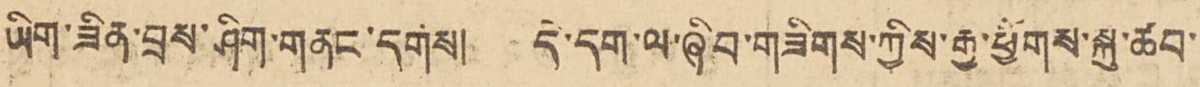ཡིག་ཟིན་བྲས་ཤིག་གནང་དགས། དེ་དག་ལ་ཞིབ་གཟིགས་ཀྱིས་རྒྱ་ཕྱོགས་སྐུ་ཚབ་
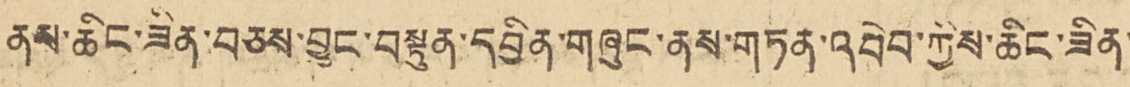ནས་ཆིང་ཟིན་བཅས་བྱུང་བསྟུན་དབྱིན་གཞུང་ནས་གཏན་འབེབ་ཀྱིས་ཆིང་ཟིན་
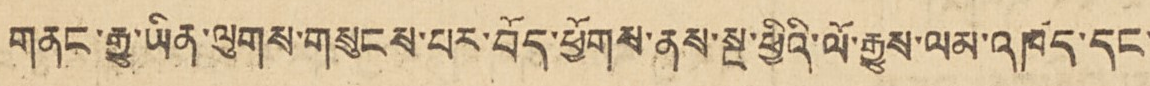གནང་རྒྱུ་ཡིན་ལུགས་གསུངས་པར་བོད་ཕྱོགས་ནས་སྔ་ཕྱིའི་ལོ་རྒྱུས་ལམ་འཁད་དང་
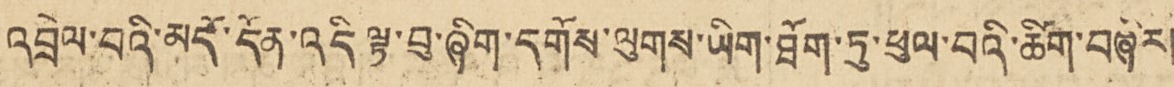འབྲེལ་བའི་མདོ་དོན་འདི་ལྟ་བུ་ཞིག་དགོས་ལུགས་ཡིག་ཐོག་ཏུ་ཕུལ་བའི་ཚིག་བཞིར།
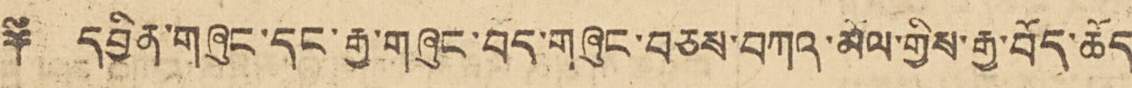༈ དབྱིན་གཞུང་དང་རྒྱ་གཞུང་བོད་གཞུང་བཅས་བཀའ་མོལ་གྱིས་རྒྱ་བོད་ཆོད་
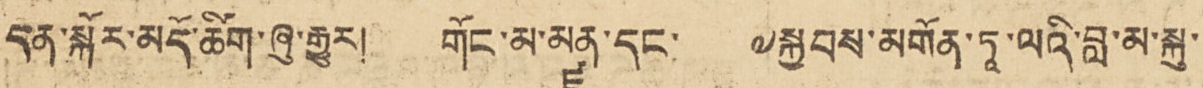དན་སྐོར་མདོ་ཚིག་ཞུ་རྒྱུར། གོང་མ་མནྫུ་དང་ ༸སྐྱབས་མགོན་ཏཱ་ལའི་བླ་མ་སྐུ་
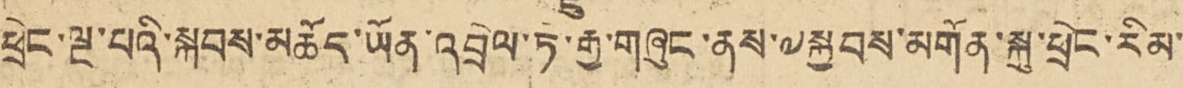ཕྲེང་ལྔ་པའི་མཆོད་ཡོན་འབྲེལ་ཏེ་རྒྱ་གཞུང་ནས་༸སྐྱབས་མགོན་སྐུ་ཕྲེང་རིམ་
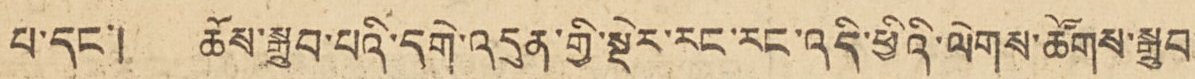པ་དང་། ཆོས་སྒྲུབ་པའི་དགེ་འདུན་གྱི་སྡེར་རང་རང་འདི་ཕྱིའི་ལེགས་ཚོགས་སྒྲུབ་
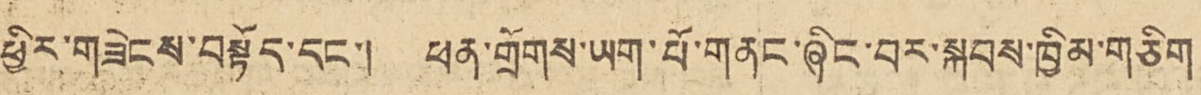ཕྱིར་གཟེངས་བསྟོད་དང་། ཕན་གྲོགས་ཡག་པོ་གནང་ཞིང་བར་སྐབས་ཁྱིམ་གཅིག
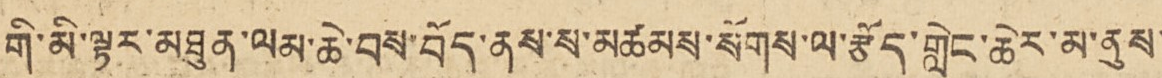གི་མི་ལྟར་མཐུན་ལམ་ཆེ་བས་བོད་ནས་ས་མཚམས་སོགས་ལ་རྩོད་གླེང་ཆེར་མ་ནུས་
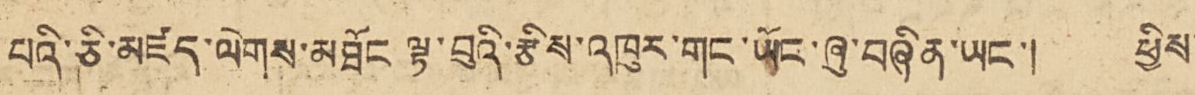པའི་ཅི་མཛད་ལེགས་མཐོང ལྷ་བུའི་རྩིས་འཁུར་གང་ཡོང་ཞུ་བཞིན་ཡང་། ཕྱིས་
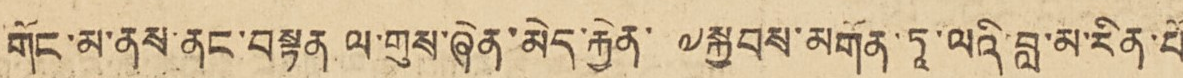གོང་མ་ནས་ནང་བསྟན ལ་གུས་ཞེན་མེད་རྐྱེན་ ༸སྐྱབས་མགོན་ཏཱ་ལའི་བླ་མ་རིན་པོ་
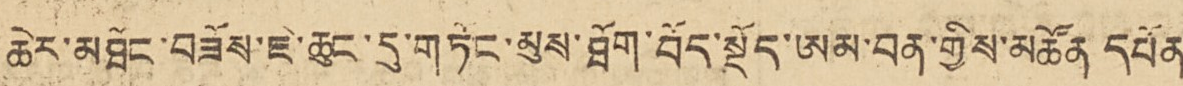ཆེར་མཐོང་བཟོས་ཇེ་ཆུང་དུ་གཏེར་མུས་ཐོག་བོད་སྡོད་ཨམ་བན་གྱིས་མཚོན དཔོན་
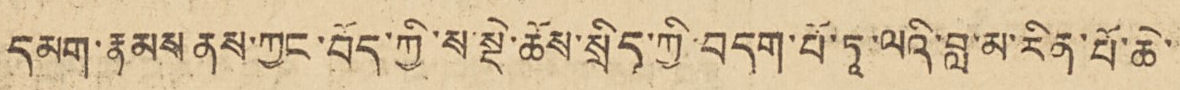དམག་རྣམས ནས་ཀྱང་བོད་ཀྱི་ས་སྡེ་ཆོས་སྲིད་ཀྱི་བདག་པོ་ཏཱ་ལའི་བླ་མ་རིན་པོ་ཆེ་
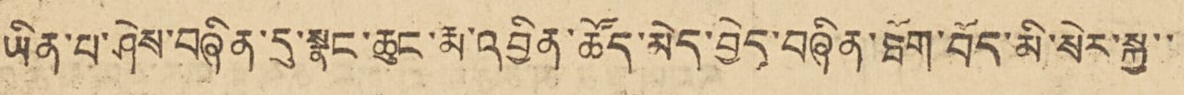ཡིན་པ་ཤེས་བཞིན་དུ་སྣང་ཆུང་རྨ་འབྱིན་ཚོད་མེད་བྱེད་བཞིན་ཐོག་བོད་མི་སེར་སྐྱ་་
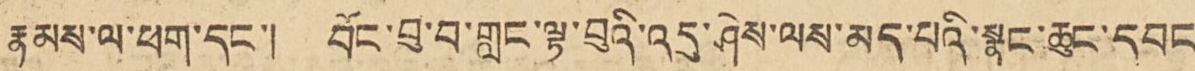རྣམས་ལ་ཕག་དང་། བོང་བུ་བ་གླང་ལྟ་བུའི་འདུ་ཤེས་ལས་མད་པའི་སྣང་ཆུང་དབང
